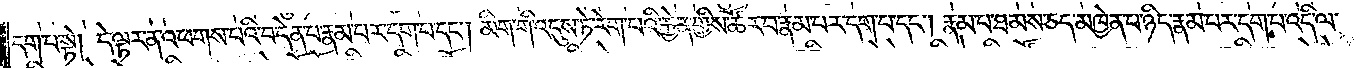དག་པ་སྟེ། དེ་ལྟར་ན་འཕགས་པའི་བདེན་པ་རྣམ་པར་དག་པ་དང༌། མིག་གི་འདུས་ཏེ་རེག་པའི་རྐྱེན་གྱིས་ཚོར་བ་རྣམ་པར་དག་པ་དང༌། རྣམ་པ་ཐམས་ཅད་མཁྱེན་པ་ཉིད་རྣམ་པར་དག་པ་འདི་ལ་
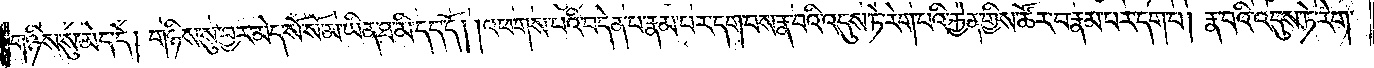གཉིས་སུ་མེད་དེ། གཉིས་སུ་བྱར་མེད་སོ་སོ་མ་ཡིན་ཐ་མི་དད་དོ། །འཕགས་པའི་བདེན་པ་རྣམ་པར་དག་པས་རྣ་བའི་འདུས་ཏེ་རེག་པའི་རྐྱེན་གྱིས་ཚོར་བ་རྣམ་པར་དག་པ། རྣ་བའི་འདུས་ཏེ་རེག་
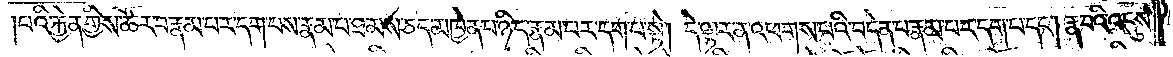པའི་རྐྱེན་གྱིས་ཚོར་བ་རྣམ་པར་དག་པས་རྣམ་པ་ཐམས་ཅད་མཁྱེན་པ་ཉིད་རྣམ་པར་དག་པ་སྟེ། དེ་ལྟར་ན་འཕགས་པའི་བདེན་པ་རྣམ་པར་དག་པ་དང༌། རྣ་བའི་འདུས་
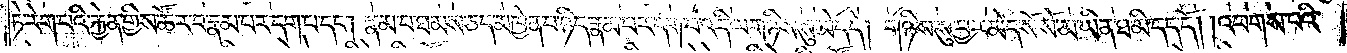ཏེ་རེག་པའི་རྐྱེན་གྱིས་ཚོར་བ་རྣམ་པར་དག་པ་དང༌། རྣམ་པ་ཐམས་ཅད་མཁྱེན་པ་ཉིད་རྣམ་པར་དག་པ་འདི་ལ་གཉིས་སུ་མེད་དེ། གཉིས་སུ་བྱར་མེད་སོ་སོ་མ་ཡིན་ཐ་མི་དད་དོ། །འཕགས་པའི་
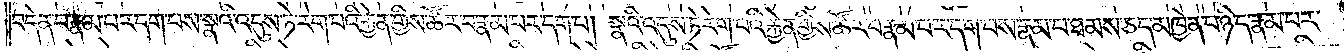བདེན་པ་རྣམ་པར་དག་པས་སྣའི་འདུས་ཏེ་རེག་པའི་རྐྱེན་གྱིས་ཚོར་བ་རྣམ་པར་དག་པ། སྣའི་འདུས་ཏེ་རེག་པའི་རྐྱེན་གྱིས་ཚོར་བ་རྣམ་པར་དག་པས་རྣམ་པ་ཐམས་ཅད་མཁྱེན་པ་ཉིད་རྣམ་པར་
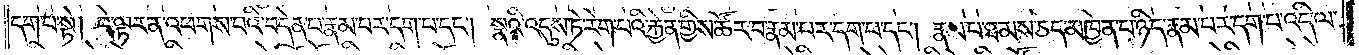དག་པ་སྟེ། དེ་ལྟར་ན་འཕགས་པའི་བདེན་པ་རྣམ་པར་དག་པ་དང༌། སྣའི་འདུས་ཏེ་རེག་པའི་རྐྱེན་གྱིས་ཚོར་བ་རྣམ་པར་དག་པ་དང༌། རྣམ་པ་ཐམས་ཅད་མཁྱེན་པ་ཉིད་རྣམ་པར་དག་པ་འདི་ལ་
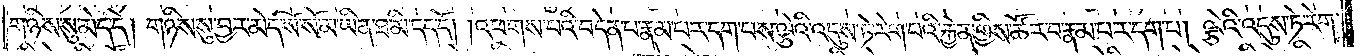གཉིས་སུ་མེད་དེ། གཉིས་སུ་བྱར་མེད་སོ་སོ་མ་ཡིན་ཐ་མི་དད་དོ། །འཕགས་པའི་བདེན་པ་རྣམ་པར་དག་པས་ལྕེའི་འདུས་ཏེ་རེག་པའི་རྐྱེན་གྱིས་ཚོར་བ་རྣམ་པར་དག་པ། ལྕེའི་འདུས་ཏེ་རེག་
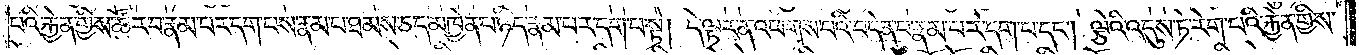པའི་རྐྱེན་གྱིས་ཚོར་བ་རྣམ་པར་དག་པས་རྣམ་པ་ཐམས་ཅད་མཁྱེན་པ་ཉིད་རྣམ་པར་དག་པ་སྟེ། དེ་ལྟར་ན་འཕགས་པའི་བདེན་པ་རྣམ་པར་དག་པ་དང༌། ལྕེའི་འདུས་ཏེ་རེག་པའི་རྐྱེན་གྱིས་
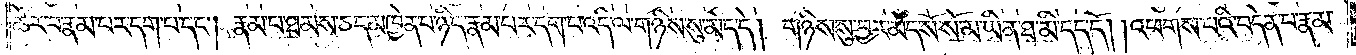ཚོར་བ་རྣམ་པར་དག་པ་དང༌། རྣམ་པར་ཐམས་ཅད་མཁྱེན་པ་ཉིད་རྣམ་པར་དག་པ་འདི་ལ་གཉིས་སུ་མེད་དེ། གཉིས་སུ་བྱར་མེད་སོ་སོ་མ་ཡིན་ཐ་མི་དད་དོ། །འཕགས་པའི་བདེན་པ་རྣམ་
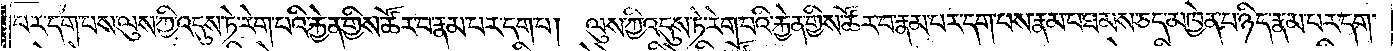པར་དག་པས་ལུས་ཀྱི་འདུས་ཏེ་རེག་པའི་རྐྱེན་གྱིས་ཚོར་བ་རྣམ་པར་དག་པ། ལུས་ཀྱི་འདུས་ཏེ་རེག་པའི་རྐྱེན་གྱིས་ཚོར་བ་རྣམ་པར་དག་པས་རྣམ་པ་ཐམས་ཅད་མཁྱེན་པ་ཉིད་རྣམ་པར་དག་
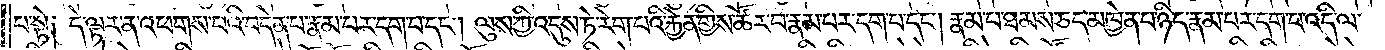པ་སྟེ༑ དེ་ལྟར་ན་འཕགས་པའི་བདེན་པ་རྣམ་པར་དག་པ་དང༌། ལུས་ཀྱི་འདུས་ཏེ་རེག་པའི་རྐྱེན་གྱིས་ཚོར་བ་རྣམ་པར་དག་པ་དང༌། རྣམ་པ་ཐམས་ཅད་མཁྱེན་པ་ཉིད་རྣམ་པར་དག་པ་འདི་ལ་
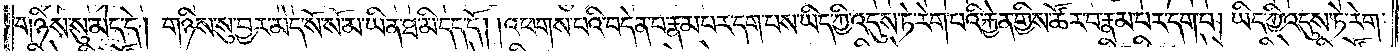གཉིས་སུ་མེད་དེ། གཉིས་སུ་བྱར་མེད་སོ་སོ་མ་ཡིན་ཐ་མི་དད་དོ། །འཕགས་པའི་བདེན་པ་རྣམ་པར་དག་པས་ཡིད་ཀྱི་འདུས་ཏེ་རེག་པའི་རྐྱེན་གྱིས་ཚོར་བ་རྣམ་པར་དག་པ། ཡིད་ཀྱི་འདུས་ཏེ་རེག་
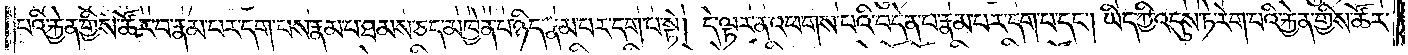པའི་རྐྱེན་གྱིས་ཚོར་བ་རྣམ་པར་དག་པས་རྣམ་པ་ཐམས་ཅད་མཁྱེན་པ་ཉིད་རྣམ་པར་དག་པ་སྟེ། དེ་ལྟར་ན་འཕགས་པའི་བདེན་པ་རྣམ་པར་དག་པ་དང༌། ཡིད་ཀྱི་འདུས་ཏེ་རེག་པའི་རྐྱེན་གྱིས་ཚོར་
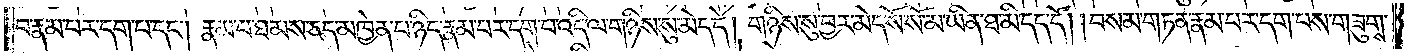བ་རྣམ་པར་དག་པ་དང༌། རྣམ་པ་ཐམས་ཅད་མཁྱེན་པ་ཉིད་རྣམ་པར་དག་པ་འདི་ལ་གཉིས་སུ་མེད་དེ། གཉིས་སུ་བྱར་མེད་སོ་སོ་མ་ཡིན་ཐ་མི་དད་དོ། །བསམ་གཏན་རྣམ་པར་དག་པས་གཟུགས་
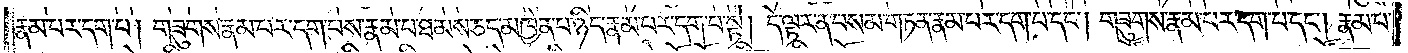རྣམ་པར་དག་པ། གཟུགས་རྣམ་པར་དག་པས་རྣམ་པ་ཐམས་ཅད་མཁྱེན་པ་ཉིད་རྣམ་པར་དག་པ་སྟེ། དེ་ལྟར་ན་བསམ་གཏན་རྣམ་པར་དག་པ་དང༌། གཟུགས་རྣམ་པར་དག་པ་དང༌། རྣམ་པ་
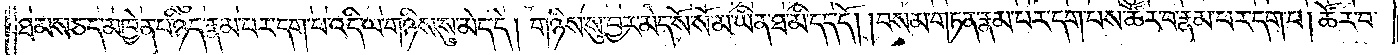ཐམས་ཅད་མཁྱེན་པ་ཉིད་རྣམ་པར་དག་པ་འདི་ལ་གཉིས་སུ་མེད་དེ། གཉིས་སུ་བྱར་མེད་སོ་སོ་མ་ཡིན་ཐ་མི་དད་དོ། །བསམ་གཏན་རྣམ་པར་དག་པས་ཚོར་བ་རྣམ་པར་དག་པ། ཚོར་བ་
